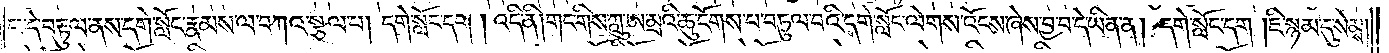པ་དེ་བརྟུལ་ནས་དགེ་སློང་རྣམས་ལ་བཀའ་སྩལ་པ། དགེ་སློང་དག །འདི་ནི། གང་གིས་ཀླུ་ཨ་མྲའི་ཆུ་ངོགས་པ་བཏུལ་བའི་དགེ་སློང་ལེགས་འོངས་ཞེས་བྱ་བ་དེ་ཡིན་ན། དགེ་སློང་དག །ཇི་སྙམ་དུ་སེམས་
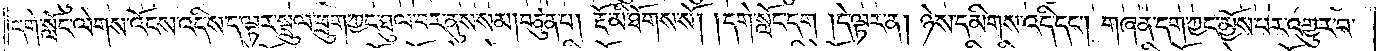དགེ་སློང་ལེགས་འོངས་འདིས་ད་ལྟར་སྦྲུལ་ཕྲུག་ཀྱང་ཐུལ་བར་ནུས་སམ། བཙུན་པ། རྔོ་མི་ཐོགས་སོ། །དགེ་སློང་དག །དེ་ལྟར་ན། ཉེས་དམིགས་འདི་དང༌། གཞན་དག་ཀྱང་མྱོས་པར་འགྱུར་བ་
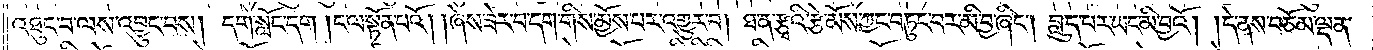འཐུང་བ་ལས་བྱུང་བས། དགེ་སློང་དག །ང་ལ་སྟོན་པའོ། །ཞེས་ཟེར་བ་དག་གིས་མྱོས་པར་འགྱུར་བ། ཐ་ན་རྩྭའི་རྩེ་མོས་ཀྱང་བཏུང་བར་མི་བྱ་ཟིང༌། བླུད་པར་ཡང་མི་བྱའོ། །དེ་ནས་བཅོམ་ལྡན་
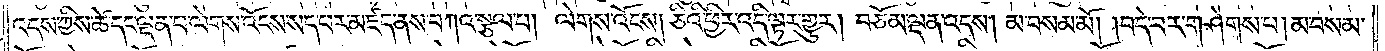འདས་ཀྱིས་ཚེ་དང་ལྡན་པ་ལེགས་འོངས་སད་པར་མཛད་ནས་བཀའ་སྩལ་པ། ལེགས་འོངས། ཅིའི་ཕྱིར་འདི་ལྟར་གྱུར། བཅོམ་ལྡན་འདས། མ་བསམ་མོ། །བདེ་བར་གཤེགས་པ། མ་བསམ་
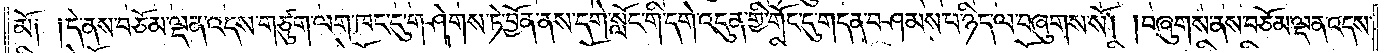མོ༑ ༑དེ་ནས་བཅོམ་ལྡན་འདས་གཙུག་ལག་ཁང་དུ་གཤེགས་ཏེ་བྱོན་ནས་དགེ་སློང་གི་དགེ་འདུན་གྱི་གོང་དུ་གདན་བཤམས་པ་ཉིད་ལ་བཞུགས་སོ། །བཞུགས་ནས་བཅོམ་ལྡན་འདས་
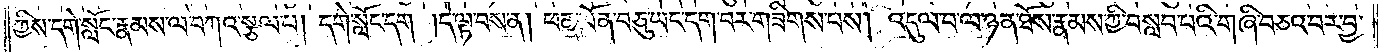ཀྱིས་དགེ་སློང་རྣམས་ལ་བཀའ་སྩལ་པ། དགེ་སློང་དག །དེ་ལྟ་བས་ན། ཕན་ཡོན་བཅུ་ཡང་དག་པར་གཟིགས་པས། འདུལ་བ་ལ་ཉན་ཐོས་རྣམས་ཀྱི་བསླབ་པའི་གཞི་བཅའ་བར་བྱ་
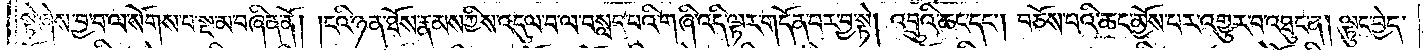སྟེ་ཞེས་བྱ་བ་ལ་སོགས་པ་སྔ་མ་བཞིན་ནོ། །ངའི་ཉན་ཐོས་རྣམས་ཀྱིས་འདུལ་བ་ལ་བསླབ་པའི་གཞི་འདི་ལྟར་གདོན་པར་བྱ་སྟེ། འབྲུའི་ཆང་དང༌། བཅོས་པའི་ཆང་མྱོས་པར་འགྱུར་བ་འཐུང་ན། ལྟུང་བྱེད་
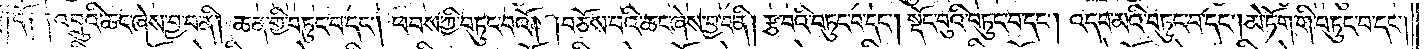དོ༑ ༑འབྲུའི་ཆང་ཞེས་བྱ་བ་ནི། ཆན་གྱི་བཏུང་བ་དང༌། ཕབས་ཀྱི་བཏུང་བའོ། །བཅོས་པའི་ཆང་ཞེས་བྱ་བ་ནི། རྩ་བའི་བཏུང་བ་དང༌། སྡོང་བུའི་བཏུང་བ་དང༌། འདབ་མའི་བཏུང་བ་དང༌། མེ་ཏོག་གི་བཏུང་བ་དང༌།
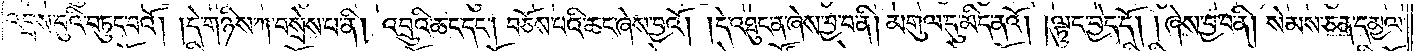འབྲས་བུའི་བཏུང་བའོ། །དེ་གཉིས་ཀ་བསྲེས་པ་ནི། འབྲུའི་ཆང་དང༌། བཅོས་པའི་ཆང་ཞེས་བྱའོ། །དེ་འཐུང་ན་ཞེས་བྱ་བ་ནི། མགུལ་དུ་མིད་ནའོ། །ལྟུང་བྱེད་དོ། །ཞེས་བྱ་བ་ནི། སེམས་ཅན་དམྱལ་
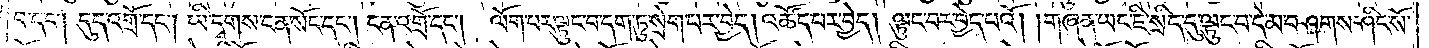བ་དང༌། དུད་འགྲོ་དང༌། ཡི་དྭགས་ངན་སོང་དང༌། ངན་འགྲོ་དང༌། ལོག་པར་ལྟུང་བ་དག་ཏུ་སྲེག་པར་བྱེད། འཚོད་པར་བྱེད། ལྟུང་བར་བྱེད་པའོ། །གཞན་ཡང་ཇི་སྲིད་དུ་ལྟུང་བ་དེ་མ་བཤགས་ཤིང་སོ་
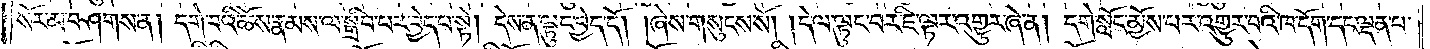སོར་མ་བཤགས་ན། དགེ་བའི་ཆོས་རྣམས་ལ་སྒྲིབ་པར་བྱེད་པ་སྟེ། དེས་ན་ལྟུང་བྱེད་དོ། །ཞེས་གསུངས་སོ། །དེ་ལ་ལྟུང་བར་ཇི་ལྟར་འགྱུར་ཞེ་ན། དགེ་སློང་མྱོས་པར་འགྱུར་བའི་ཁ་དོག་དང་ལྡན་པ་
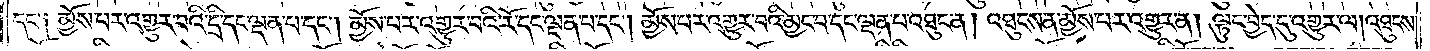དང་༑ སྨྱོས་པར་འགྱུར་པའི་དྲི་དང་ལྡན་པ་དང༌། མྱོས་པར་འགྱུར་བའི་རོ་དང་ལྡན་པ་དང༌། མྱོས་པར་འགྱུར་བའི་མྱང་བ་དང་ལྡན་པ་འཐུང་ན། འཐུངས་ན་མྱོས་པར་འགྱུར་ན། ལྟུང་བྱེད་དུ་འགྱུར་ལ། འཐུངས་
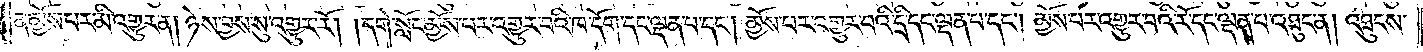ན་མྱོས་པར་མི་འགྱུར་ན། ཉེས་བྱས་སུ་འགྱུར་རོ། །དགེ་སློང་མྱོས་པར་འགྱུར་བའི་ཁ་དོག་དང་ལྡན་པ་དང༌། མྱོས་པར་འགྱུར་བའི་དྲི་དང་ལྡན་པ་དང༌། མྱོས་པར་འགྱུར་བའི་རོ་དང་ལྡན་པ་འཐུང་ན། འཐུངས་
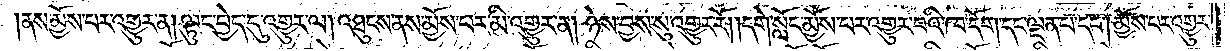ནས་མྱོས་པར་འགྱུར་ན། ལྟུང་བྱེད་དུ་འགྱུར་ལ། འཐུངས་ནས་མྱོས་པར་མི་འགྱུར་ན། ཉེས་བྱས་སུ་འགྱུར་རོ། །དགེ་སློང་མྱོས་པར་འགྱུར་བའི་ཁ་དོག་དང་ལྡན་པ་དང༌། མྱོས་པར་འགྱུར་
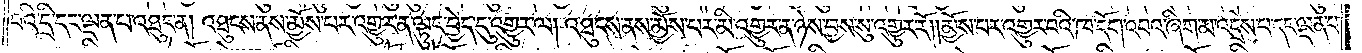བའི་དྲི་དང་ལྡན་པ་འཐུང་ན། འཐུངས་ནས་མྱོས་པར་འགྱུར་ན་ལྟུང་བྱེད་དུ་འགྱུར་ལ། འཐུངས་ནས་མྱོས་པར་མི་འགྱུར་ན་ཉེས་བྱས་སུ་འགྱུར་རོ། །མྱོས་པར་འགྱུར་བའི་ཁ་དོག་འབའ་ཞིག་མ་འདྲེས་པ་དང་ལྡན་པ་
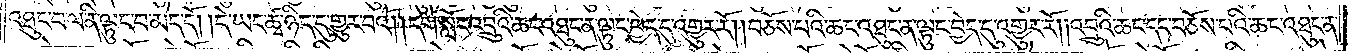འཐུང་བ་ལ་ནི་ལྟུང་བ་མེད་དོ། །དེ་ཡང་ཚྭ་ཉིད་དུ་གྱུར་བའོ། །དགེ་སློང་འབྲུའི་ཆང་འཐུང་ན་ལྟུང་བྱེད་དུ་འགྱུར་རོ། །བཅོས་པའི་ཆང་འཐུང་ན་ལྟུང་བྱེད་དུ་འགྱུར་རོ། །འབྲུའི་ཆང་དང་བཅོས་པའི་ཆང་འཐུང་ན་
